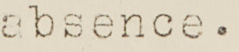absence.
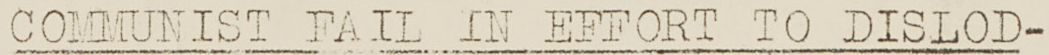COMMUNIST FAIL IN EFFORT TO DISLOD-
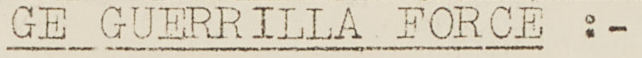GE GUERRILLA FORCE :-
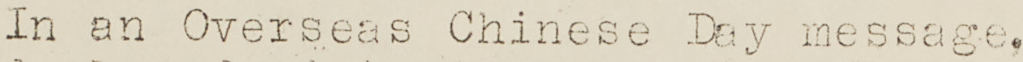In an Overseas Chinese Day message
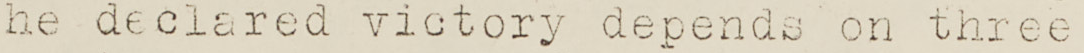he declared victory depends on three
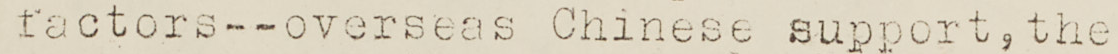factors --overseas Chinese support, the
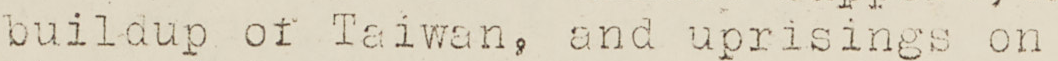buildup of Taiwan, and uprisings on
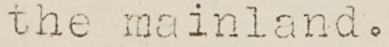the mainland.
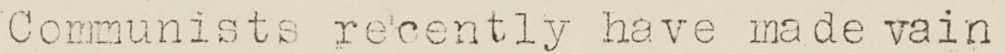Communists recently have made vain
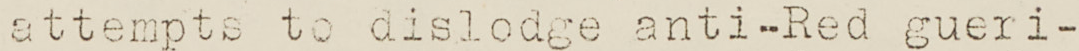attempts to dislodge anti-Red gueri-
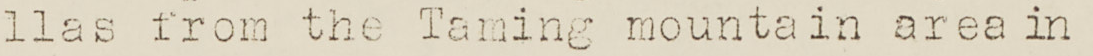llas from the Taming mountain area in
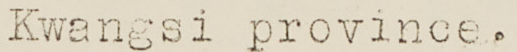Kwangsi province.
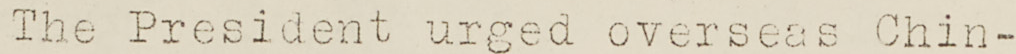The President urged overseas Chin-
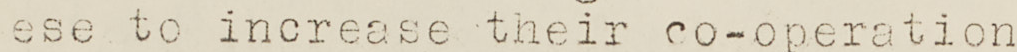ese to increase their co-operation
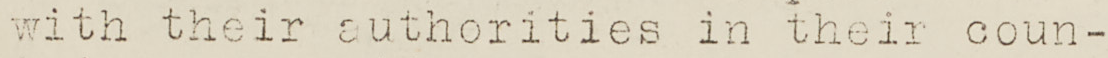with their authorities in the count
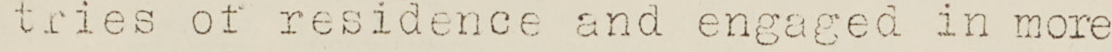tries of residence and engaged in more
